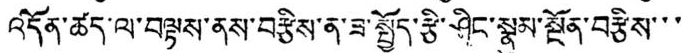འདོན་ཚད་ལ་བལྟས་ནས་བརྩིས་ན་ཟ་སྤྱོད་རྩི་ཤིང་སྣུམ་སྔོན་བརྩིས་་་
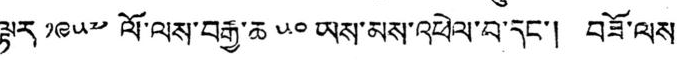ལྟར ༡༩༥༧ ལོ་ལས་བརྒྱ་ཆ ༥༠ ཡས་མས་འཕེལ་བ་དང་། བཟོ་ལས
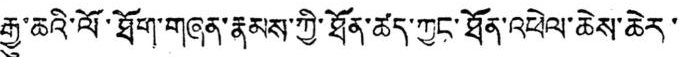རྒྱུ་ཆའི་ལོ་ཐོག་གཞན་རྣམས་ཀྱི་ཐོན་ཚད་ཀྱང་ཐོན་འཕེལ་ཆེས་ཆེར་
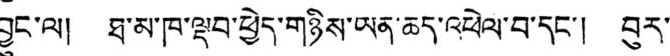བྱུང་ལ། ཐ་མ་ཁ་ལྡབ་ཕྱེད་གཉིས་ཡན་ཆད་འཕེལ་བ་དང་། བུར་
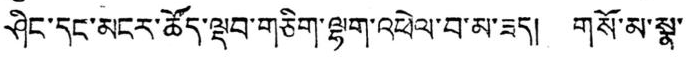ཤིང་དང་མངར་ཚོད་ལྡབ་གཅིག་ལྷག་འཕེལ་བ་མ་ཟད། གསོ་མ་སྣ་
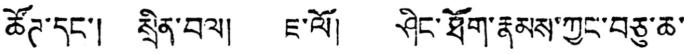ཚོཊ་དང་། སྲིན་བལ། ཇ་ལོ། ཤིང་ཐོག་རྣམས་ཀྱང་བཅུ་ཆ་
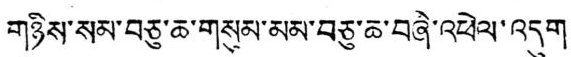གཉིས་སམ་བཅུ་ཆ་གསུམ་མམ་བཅུ་ཆ་བཞི་འཕེལ་འདུག
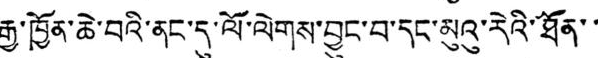རྒྱ་ཁྱོན་ཆེ་བའི་ནང་དུ་ལོ་ལེགས་བྱུང་བ་དང་མུའུ་རེའི་ཐོན་་
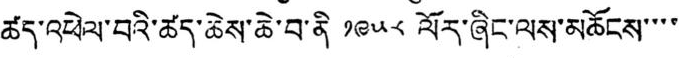ཚད་འཕེལ་བའི་ཚད་ཆེས་ཆེ་བ་ནི ༡༩༥༨ ལོར་ཞིང་ལས་མཆོངས་་་་
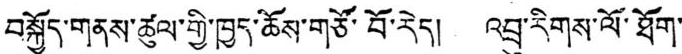བསྐྱོད་གནས་ཚུལ་གྱི་ཁྱད་ཆོས་གཙོ་བོ་རེད། འབྲུ་རིགས་ལོ་ཐོག་
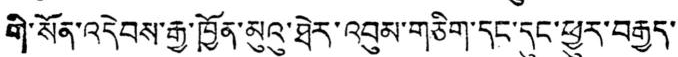གི་སོན་འདེབས་རྒྱ་ཁྱོན་མུའུ་ཐེར་འབུམ་གཅིག་དང་དུང་ཕྱུར་བརྒྱད་་
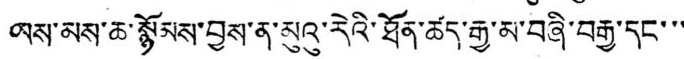ཡས་མས་ཆ་སྙོམས་བྱས་ན་མུའུ་རེའི་ཐོན་ཚད་རྒྱ་མ་བཞི་བརྒྱ་དང་་་
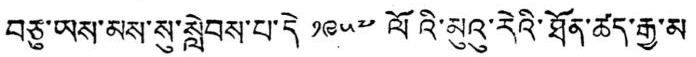བཅུ་ཡས་མས་སུ་སླེབས་པ་དེ ༡༩༥༧ ལོའི་མུའུ་རེའི་ཐོན་ཚད་རྒྱ་མ
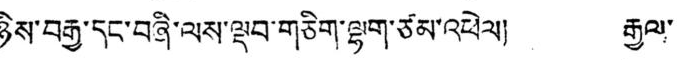ཉིས་བརྒྱ་དང་བཞི་ལས་ལྡབ་གཅིག་ལྷག་ཙམ་འཕེལ། རྒྱལ་
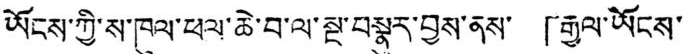ཡོངས་ཀྱི་ས་ཁུལ་ཕལ་ཆེ་བ་ལ་སྔ་བསྣུར་བྱས་ནས་ 「རྒྱལ་ཡོངས་
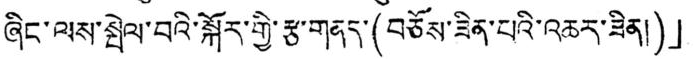ཞིང་ལས་སྤེལ་བའི་སྐོར་གྱི་རྩ་གནད་(བཅོས་ཟིན་པའི་འཆར་ཟིན།)」
